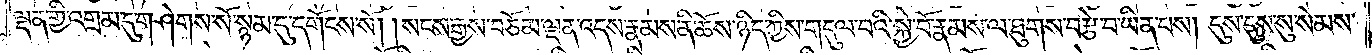ལྡན་གྱི་འགྲམ་དུ་གཤེགས་སོ་སྙམ་དུ་དགོངས་སོ། །སངས་རྒྱས་བཅོམ་ལྡན་འདས་རྣམས་ནི་ཆོས་ཉིད་ཀྱིས་གདུལ་བའི་སྐྱེ་བོ་རྣམས་ལ་ཐུགས་བརྩེ་བ་ཡིན་པས། དུས་དུས་སུ་སེམས་
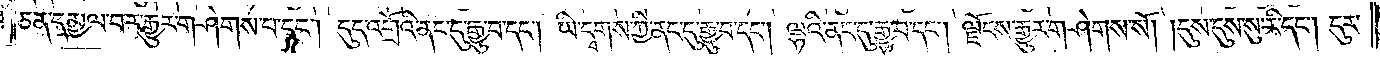ཅན་དམྱལ་བར་རྒྱུར་གཤེགས་པ་དང༌། དུད་འགྲོའི་ནང་དུ་རྒྱུ་བ་དང༌། ཡི་དྭགས་ཀྱི་ནང་དུ་རྒྱུ་བ་དང༌། ལྷའི་ནང་དུ་རྒྱུ་བ་དང༌། ལྗོངས་རྒྱུར་གཤེགས་སོ། །དུས་དུས་སུ་རི་དང༌། དུར་
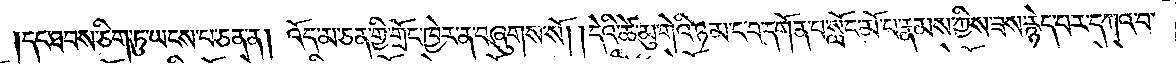དང་ཐབས་ཅིག་ཏུ་ཡངས་པ་ཅན་ན། འོད་མ་ཅན་གྱི་གྲོང་ཁྱེར་ན་བཞུགས་སོ། །དེའི་ཚེ་མུ་གེའི་ཉམ་ང་བ་དགོན་པ་སློང་མོ་པ་རྣམས་ཀྱིས་ཟས་རྙེད་པར་དཀའ་བ་
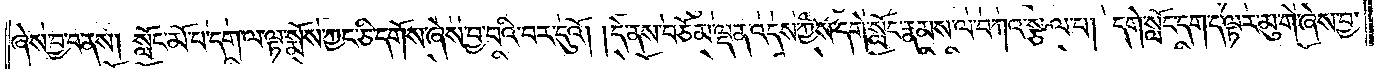ཞེས་བྱ་བ་ནས། སློང་མོ་པ་དག་ལ་ལྟ་སྨོས་ཀྱང་ཅི་དགོས་ཞེས་བྱ་བའི་བར་དུའོ། །དེ་ནས་བཅོམ་ལྡན་འདས་ཀྱིས་དགེ་སློང་རྣམས་ལ་བཀའ་སྩལ་པ། དགེ་སློང་དག་ད་ལྟར་མུ་གེ་ཞེས་བྱ་
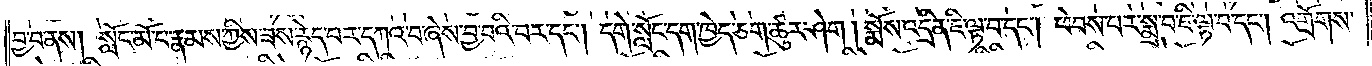བྱ་བ་ནས། སློང་མོ་པ་རྣམས་ཀྱིས་ཟས་རྙེད་པར་དཀའ་བ་ཞེས་བྱ་བའི་བར་དང༌། དགེ་སློང་དག་ཁྱེད་ཅག་ཚུར་ཤེག། སྨོས་འདྲིན་ཇི་ལྟ་བ་དང༌། ཕེབས་པར་སྨྲ་བ་ཇི་ལྟ་བ་དང༌། འགྲོགས་
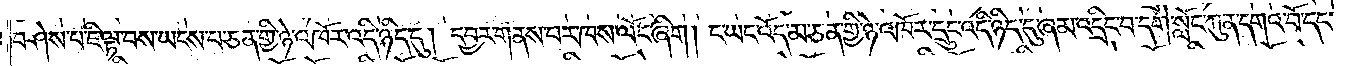བཤེས་པ་ཇི་ལྟ་བས་ཡངས་པ་ཅན་གྱི་ཉེ་འཁོར་འདི་ཉིད་དུ། དབྱར་གནས་པར་ཁས་ལོང་ཞིག། ང་ཡང་འོད་མ་ཅན་གྱི་ཉེ་འཁོར་དྲུང་འདི་ཉིད་དུ་ཞམ་འདྲིད་བ་དགེ་སློང་ཀུན་དགའ་བོ་དང་
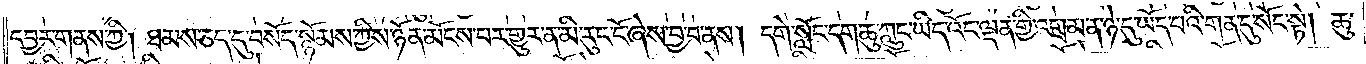དབྱར་གནས་ཀྱི། ཐམས་ཅད་དུ་བསོད་སྙོམས་ཀྱིས་ཉོན་མོངས་པར་གྱུར་ན་མི་རུང་ངོ་ཞེས་བྱ་བ་ནས། དགེ་སློང་དག་ཆུ་ཀླུང་ཡིད་འོང་ལྡན་གྱི་འགྲམ་ན་ཉེ་དུ་ཡོད་པའི་གན་དུ་སོང་སྟེ། ཆུ་
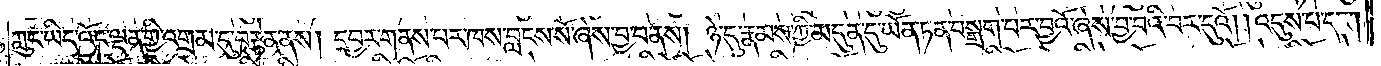ཀླུང་ཡིད་འོང་ལྡན་གྱི་འགྲམ་དུ་བརྟེན་ནས། དབྱར་གནས་པར་ཁས་བླངས་སོ་ཞེས་བྱ་བ་ནས། ཉེ་དུ་རྣམས་ཀྱི་མདུན་དུ་ཡོན་ཏན་བསྒྲག་པར་བྱའོ་ཞེས་བྱ་བའི་བར་དུའོ། །འདུས་པ་དང༌།
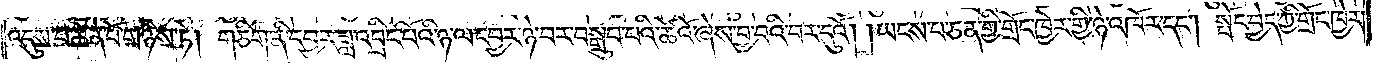འདུས་པ་ཆེན་པོ་གཉིས་ཏེ། གཅིག་ནི་དབྱར་ཟླ་འབྲིང་པོའི་ཉལ་དབྱར་ཉེ་བར་བསྒྲུབ་པའི་ཚེའོ་ཞེས་བྱ་བའི་བར་དུའོ། །ཡངས་པ་ཅན་གྱི་གྲོང་ཁྱེར་གྱི་ཉེ་འཁོར་དང༌། སྤོང་བྱེད་ཀྱི་གྲོང་ཁྱེར་
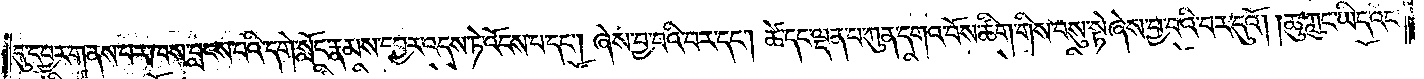དུ་དབྱར་གནས་པར་ཁས་བླངས་པའི་དགེ་སློང་རྣམས་དབྱར་འདས་ཏེ་འོངས་པ་དང༌། ཞེས་བྱ་བའི་བར་དང༌། ཚེ་དང་ལྡན་པ་ཀུན་དགའ་བོས་ཚིག་གིས་བསུ་སྟེ་ཞེས་བྱ་བའི་བར་དུའོ། །ཆུ་ཀླུང་ཡིད་འོང་
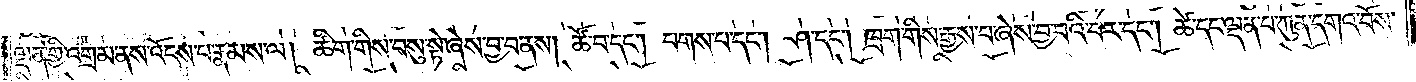ལྡན་གྱི་འགྲམ་ནས་འོངས་པ་རྣམས་ལ། ཚིག་གིས་བསུ་སྟེ་ཞེས་བྱ་བ་ནས། ཚོ་བ་དང༌། པགས་པ་དང༌། ཤ་དང༌། ཁྲག་གིས་རྒྱས་པ་ཞེས་བྱ་བའི་བར་དང༌། ཚེ་དང་ལྡན་པ་ཀུན་དགའ་བོས་
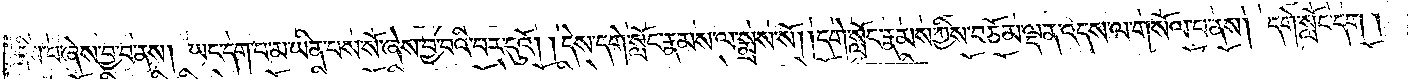དྲིས་པ་ཞེས་བྱ་བ་ནས། ཡང་དག་པ་མ་ཡིན་པས་སོ་ཞེས་བྱ་བའི་བར་དུའོ། །དེས་དགེ་སློང་རྣམས་ལ་སྨྲས་སོ། །དགེ་སློང་རྣམས་ཀྱིས་བཅོམ་ལྡན་འདས་ལ་གསོལ་པ་ནས། དགེ་སློང་དག།
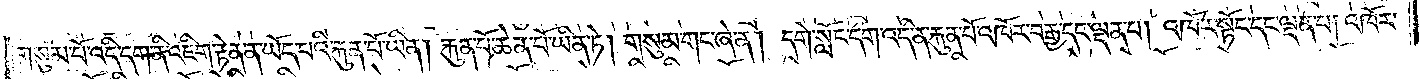གསུམ་པོ་འདི་དག་ནི་འཇིག་རྟེན་ན་ཡོད་པའི་རྐུན་པོ་ཡིན། རྐུན་པོ་ཆེན་པོ་ཡིན་ཏེ། གསུམ་གང་ཞེ་ན། དགེ་སློང་དག་འདི་ན་རྐུན་པོ་འཁོར་བརྒྱ་དང་ལྡན་པ། འཁོར་སྟོང་དང་ལྡན་པ། འཁོར་
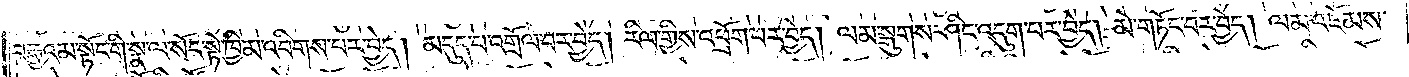བརྒྱའམ་སྟོང་གི་སྣ་ལ་སོང་སྟེ་ཁྱིམ་འབིགས་པར་བྱེད། མདུད་པ་འགྲོལ་བར་བྱེད། རིལ་གྱིས་འཕྲོག་པར་བྱེད། ལམ་སྒུགས་ཤིང་འདུག་པར་བྱེད། མེ་གཏོང་བར་བྱེད། ལམ་འཇོམས་
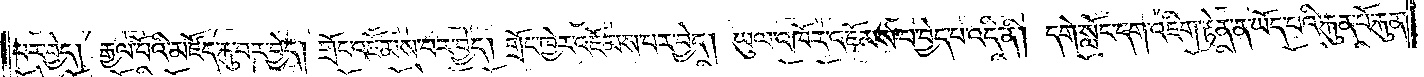པར་བྱེད། རྒྱལ་པོའི་མཛོད་རྐུ་བར་བྱེད། གྲོང་འཇོམས་པར་བྱེད། གྲོང་ཁྱེར་འཇོམས་པར་བྱེད། ཡུལ་འཁོར་འཇོམས་པ་བྱེད་པ་འདི་ནི། དགེ་སློང་དག་འཇིག་རྟེན་ན་ཡོད་པའི་རྐུན་པོ་རྐུན་
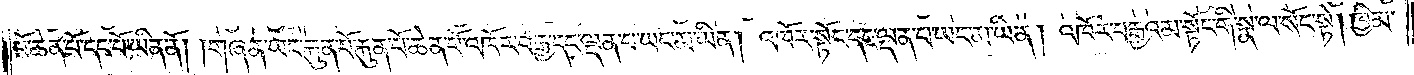པོ་ཆེན་པོ་དང་པོ་ཡིན་ནོ། །གཞན་ཡང་རྐུན་པོ་རྐུན་པོ་ཆེན་པོ་འཁོར་བརྒྱ་དང་ལྡན་པ་ཡང་མ་ཡིན། འཁོར་སྟོང་དང་ལྡན་པ་ཡང་མ་ཡིན། འཁོར་བརྒྱའམ་སྟོང་གི་སྣ་ལ་སོང་སྟེ། ཁྱིམ་
